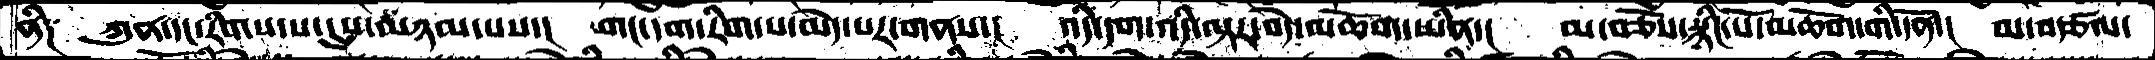ནི༑ ཀུན་དང་རིགས་པ་དུས་མཉམ་པས་། གང་དག་རིག་པ་མེད་པར་གནས་། འདི་དག་འདི་ལྟར་བདེ་མཆོག་ཡིན་། མ་བཅོས་སྙིང་པོ་མཆོག་གི་དོན་། མ་བརྩལ་
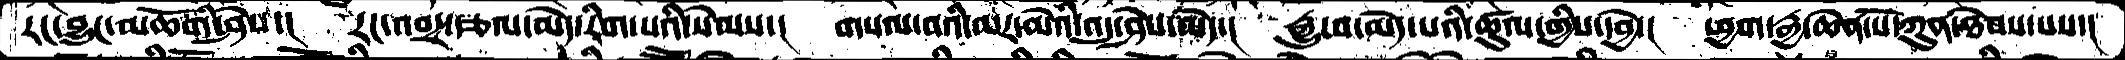རང་བྱུང་མཆོགི་ཤེས་།  རང་འབར་རྩལ་མེད་རིག་པའི་སེམས་།  གསལ་བའི་མར་མེའི་འདུ་ཤེས་མེད་།  རྒྱུ་བ་མེད་པའི་ཚུལ་གྱིས་དབྱེ་།  ཕྱག་རྒྱ་ཆེན་པོ་ཀུན་ཐེབས་པས་།
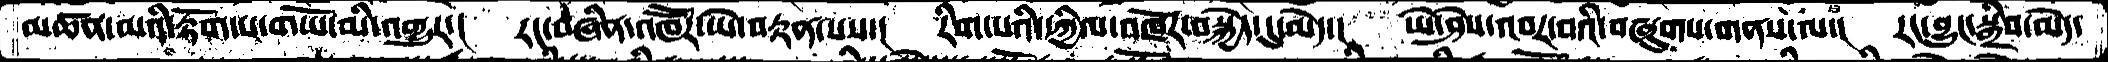མཚན་མའི་རྟོག་པ་གཡོ་མི་འགྱུར་།  རང་བཞིན་འཁཽར་ཡེ་བརྟན་པས་།  རིག་པའི་དཀྱིལ་འཁོར་བསྐྱེད་དུ་མེད་།  ཡེ་ཤེས་འབར་བའི་བཞུགས་གནས་ལ་།  རང་བྱུང་སྒྲིབ་མེད་
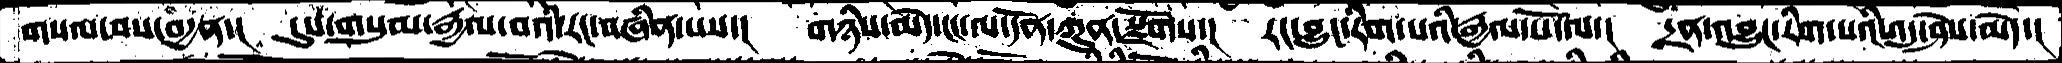གསལ་བས་བདྱན་།  དུས་གསུམ་རྒྱལ་བའི་རང་བཞིན་པས་།  གཉིས་མེད་ངང་ལ་དོན་ཀུན་སྫོགས་།  རང་བྱུང་རིག་པའི་རྒྱལ་པོ་ལ་།  དྲན་འབྱུང་རིག་པའི་འདུ་ཤེས་མེད་།
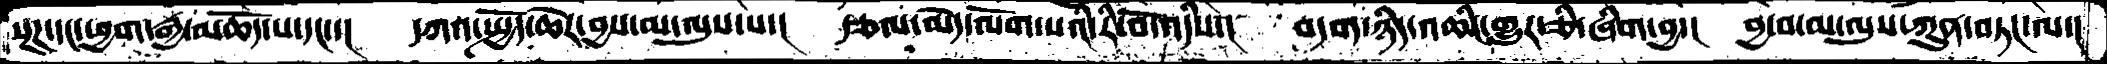སྔཌ་དང་ཕྱག་རྒྱ་མཆོད་པ་དང་་།  དཀའ་སྤྱོད་ཆེར་བྱས་མ་ལུས་པ་།   རྩལ་མེད་ལོག་པའི་རི་བོ་འདིས་།  བདག་ཉིད་འཆིང་གྱུར་ཅི་ཞིག་བྱ་།  བྱ་བ་མ་ལུས་ཀུན་བཏང་ལ་།
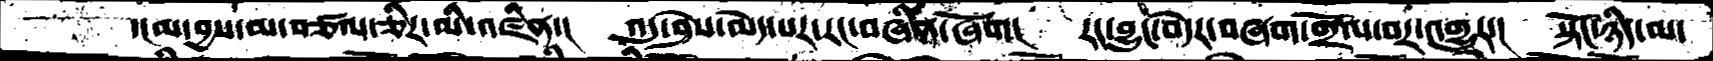་།མ་བྱས་མ་བཙལ་ཅིར་མི་འཛིན་།  འདུ་ཤེས་མེད་པར་རང་བཞིན་ཞོག།   རང་བྱུང་བདེར་བཞག་གྲོལ་བར་འགྱུར་།  སྟོང་ཉིད་མ་
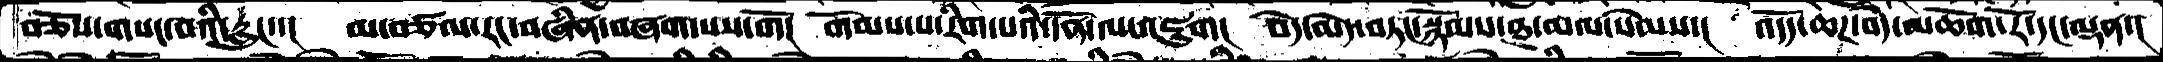བཅོས་གསང་བའི་རླུང་་།  མ་བཙལ་རང་བཞིན་བཞག་པས་གོ།  གོམས་པ་རིག་པའི་དོན་ལ་འཇུག།  བདེ་མེད་བཏང་སྙོམས་ཐ་མལ་སེམས་།  འདོད་ཆཌ་བདེ་མཆོག་རོ་དང་ལྡན་།
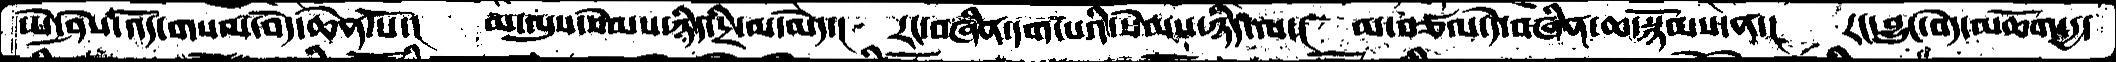ཡེ་ཤེས་འོད་གསལ་བདེ་ཆེན་པོ་།  མ་ལུས་སེམས་ཉིད་དྲི་མ་མེད་།  རང་བཞིན་དག་པའི་སེམས་ཉིད་ལ་།  མ་བཙལ་དེ་བཞིན་ཆ་སྙོམས་ན་།  རང་བྱུང་བདེ་མཆོག་དྱ་
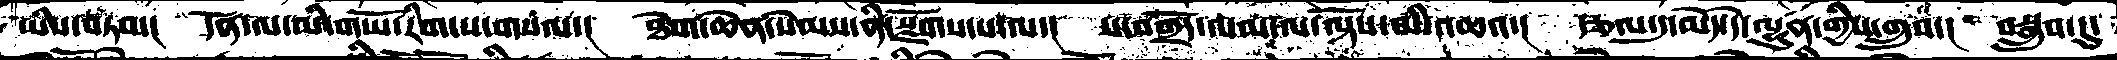ཡིས་བཏབ་།  དོན་ལ་མི་གཡོ་རིག་པ་གསལ་།  ཐེག་ཆེན་སེམས་ནི་སྫོགས་པ་ལ་།  ས་བགྲོད་ལམ་ལ་ལྟོས་མི་འཆའ་།  རྩལ་དུ་མེད་དེ་ལྷུན་གྱིས་གྲུབ་།  བསྒྲུབ་དུ་
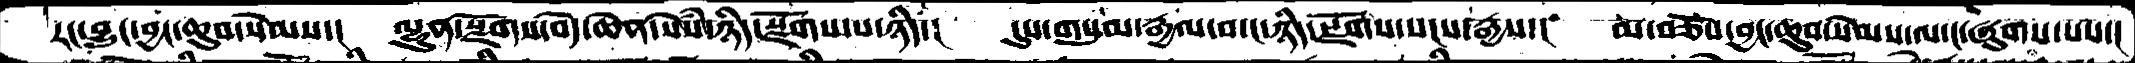རང་བྱུང་བྱང་ཆུབ་སེམས་།  ལྷུན་སྫོགས་བདེ་ཆེན་སེཾས་ཉིད་སྫོགས་པ་ཉིད་།  དུས་གསུམ་རྒྱལ་བ་ང་ཉིད་སྫོགས་སངས་རྒྱས་།  མ་བཅོས་བྱང་ཆུབ་སེམས་ལ་ང་ཞུགས་པས་།
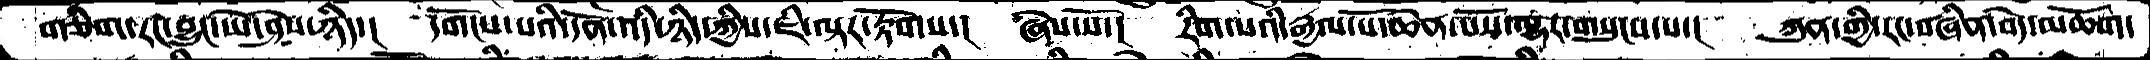གཅིག་རང་བྱུང་ཡེ་ཤེས་ཉིད་།  དགོངས་པའི་དོན་འདི་ཉིད་ཀྱིས་ཇི་ལྟར་རྟོགས་།  ཞེས་སོ་།  རིག་པའི་རྒྱལ་པོ་ཆེན་པོས་ལྷར་གསུངས་པ་།  ཀུན་གྱི་རང་བཞིན་བདེ་མཆོག་
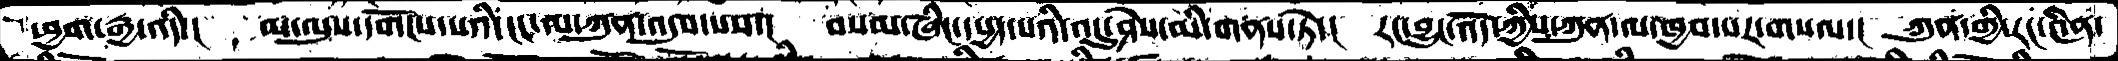ཕྱག་རྒྱ་འདི་།  མ་ལུས་དགོངས་པའི་ངང་ལ་ཀུན་འདུས་པས་།  བསམ་ཞིང་དཔྱད་པའི་འདུ་ཤེས་མི་གནས་ཏེ་།  རང་བྱུང་འོད་ཀྱིས་ཀུན་ལ་ཁྱབ་པར་གསལ་།  ཀུན་གྱི་རང་༤ིན་
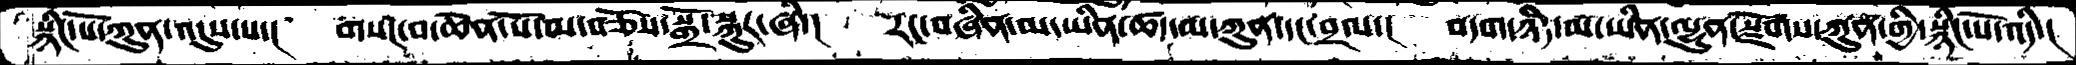སྙིང་པོ་ཀུན་འདུས་པ་།  གསང་བ་ཆེན་པོ་མ་བཅོས་སྒྲོ་སྐུར་ཞི་།  རང་བཞིན་མ་ཡིན་ཚད་མ་ཀུན་དང་བྲལ་།  བདག་ཉིད་མ་ཡིན་ལྷུན་སྫོགས་ཀུན་གྱི་སྙིང་པོ་འདི་།
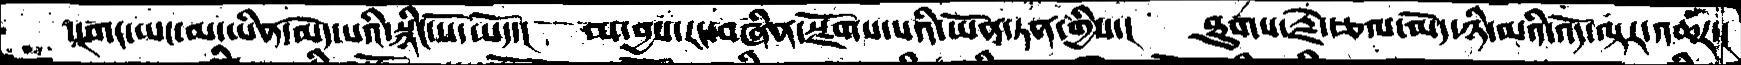་།གང་ཡང་མ་་ཡིན་མེད་པའི་སྙིང་པོ་ཡོད་།  མ་བྱས་རང་བཞིན་སྫོགས་པའི་ཡོན་ཏན་གྱིས་།  ཐུགས་རྗེ་རྩལ་མེད་ཉི་མའི་འདོ་ལྟར་འཆར་།
